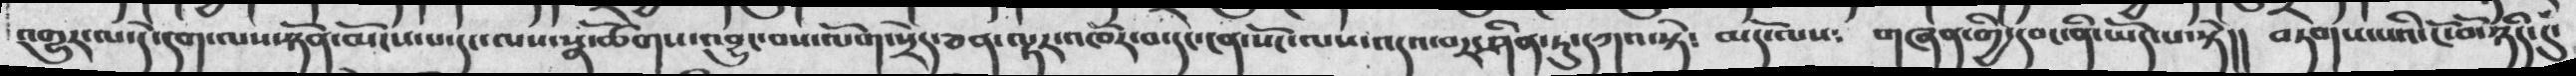འགྱུར་ལ་དེ་དག་ལས་ཉོན་མོངས་པ་དང་ལས་སྣ་ཚོགས་འབྱུང་བས་ལོག་སྲེད་ཅན་ལྟར་འཁོར་བ་དང་ངན་སོང་ལས་འདའ་བར་ཤིན་ཏུ་དཀའ་སྟེ༴  མདོ་ལས༴  གཞན་གྱི་དབང་ནི་ཡོད་པ་སྟེ།།   བཏགས་པའི་ངོ་བོ་ཉིད་དུ་
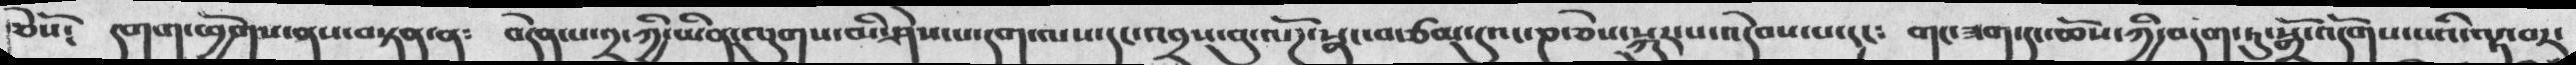ཅེསོ༴   དགག་ཕྱོགས་ནས་བསྟན་ན༴  བདེན་པ་༢་ཀྱི་ཡིན་ལུགས་མི་ཤེས་པ་དག་ལས་དང་འབྲས་བུ་ལོཌ་སྣང་བ་ཙམ་དུའང་ཎ་ཅེས་སྐུར་བ་འདེབས་པ་དང༴   གང་ཟག་དང་ཆོས་ཀྱི་བདག་ཏུ་སྒྲོ་འདོགས་པའི་ལྟ་བར་
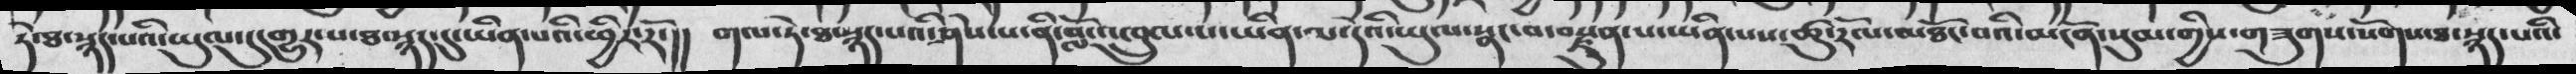ཏེ་ཐ་སྙད་པའི་ཡུལ་དུ་གྱུར་པ་ཐ་སྙད་དུ་ཡིན་པའི་ཕྱིར་རོ་།།   གལ་ཏེ་ཐ་སྙད་པའི་ཤེས་པ་ནི་བློ་འཁྲུལ་པ་ཡིན་ལ་དེའི་ཡུལ་སྣང་བ་བསྗུན་པ་ཡིན་པས་ཚུ་རོལ་མཐོང་བའི་མངོན་སུམ་གྱིས་གཟུགས་སོགས་ཐ་སྙད་པའི་
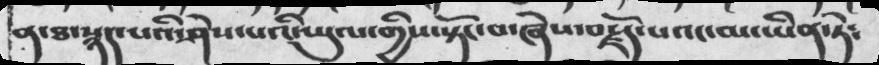ན་ཐ་སྙད་པའི་ཤེས་པའི་ཡུལ་གྱིས་སྟོང་བ་ཞེས་བརྗོད་པའང་མ་ཡིན་ཏེ༴
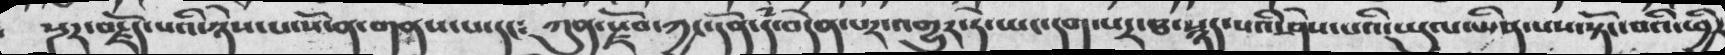སྔར་བརྫོད་པའི་ཉེས་པ་སོ་ན་གནས་པ་དང༴  ཀུན་སྫོབ་ཀྱང་དོན་དཾ་བདེན་པར་འགྱུར་ཏེ་ཡང་དག་པར་ཐ་སྙད་པའི་ཤེས་པའི་ཡུལ་ཡིན་པས་སྟོང་བའི་ཕྱིར་
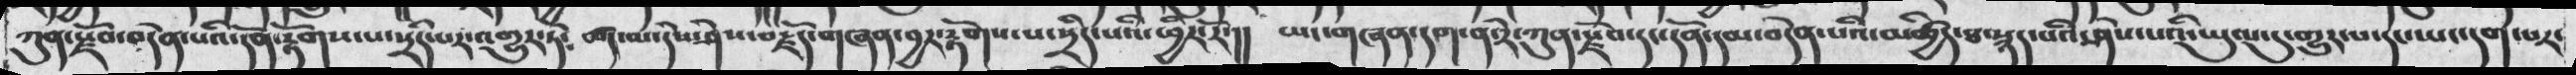ཀུན་སྫོབ་བདེན་པའི་དོན་རྟོགས་པ་སྲིད་པར་འགྱུར་ཏེ༴   ཚད་མ་དེས་ཤེས་བརྗོད་གཞན་བྱར་རྟོགས་སྲིད་པའི་ཕྱིར་རོ་།།  ཡང་གཞན་དག་ན་རེ་ཀུན་སྫོབ་དང་དོན་དམ་བདེན་པའི་མཚྱིད་ཐ་སྙད་པའི་ཤེས་པའི་ཡུལ་དུ་གྱུར་པ་དངཡང་དག་པར་
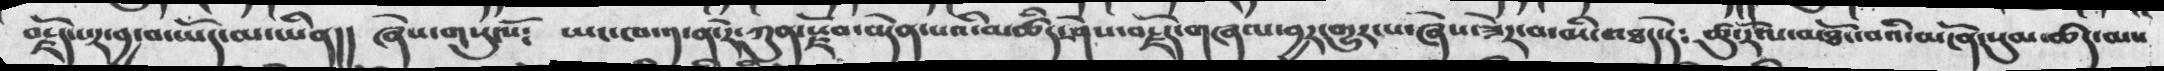བརྗོད་པར་བྱ་བ་ཡོད་མ་ཡིན།།  ཞེས་གསུངསོ༴  ཡང་ཁ་༡་ན་རེ་ཀུན་སྫོབ་བདེན་པའི་མཚིད་ཤེས་བརྗོད་གཞལ་བྱར་གྱུར་པ་ཞེས་ཟེར་བ་མི་འཐད་དེ༴   ཚུ་རོལ་མཐོང་བའི་མངོན་སུམ་ཚད་མས
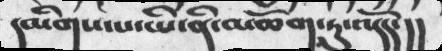དམིགས་པ་ནི་མཆོག་ཏུ་འདོད་།།
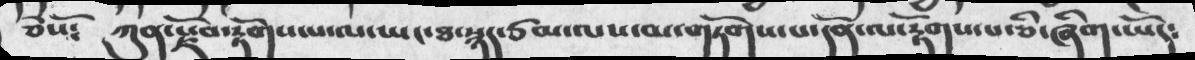ཅེསོ༴   ཀུན་སྫོབ་རྟོགས་པ་ལ་ཡང་ཐ་སྙད་ཙམ་ལས་མ་གཏོགས་པ་དོན་ལ་རྟོགས་པ་ཅི་ཞིག་ཡོད༴
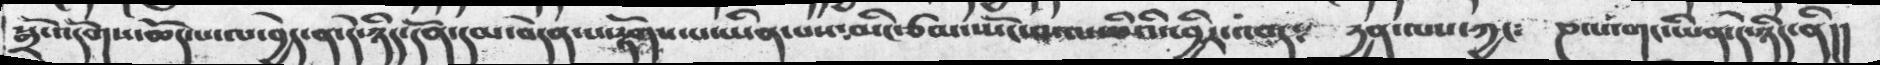སྒྲོ་འདོགས་ཆོད་པ་ལ་བྱེད་ན་དེ་ཉིད་དོན་དམ་བདེན་པ་རྟོགས་པ་ཡིན་པས་མིང་ཙམ་སྤོངས་བ་ལ་ཅིའི་ཕྱིར་འབད༴   དྱན་ལས་ཀྱང༴   ཎ་པ་གང་ཡིན་དེ་ཉིད་ནི།།
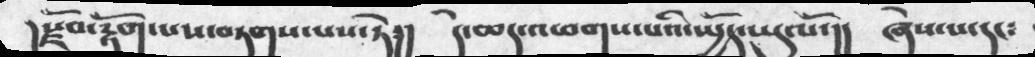།སྗོབ་རྟོག་པས་བཏགས་པས་ཏེ།།   དེ་ཆད་འཕགས་པའི་སྤྱོད་ཡུལོ་།།   ཞེས་པ་དང༴
